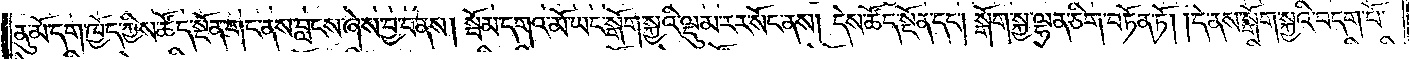ནུ་མོ་དག་ཁྱོད་ཀྱིས་ཚོད་སྔོན་གང་ནས་བླངས་ཞེས་བྱ་བ་ནས། སྦོམ་དགའ་མོ་ཡང་སྒོག་སྐྱའི་ལྡུམ་རར་སོང་ནས། དེས་ཚོད་སྔོན་དང༌། སྒོག་སྐྱ་ལྷན་ཅིག་བཏོན་ཏོ། །དེ་ནས་སྒོག་སྐྱའི་བདག་པོ་
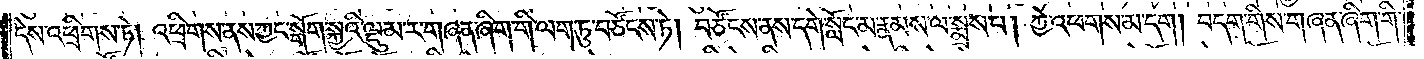དེས་འཕྲིགས་ཏེ། འཕྲིགས་ནས་ཀྱང་སྒོག་སྐྱའི་ལྡུམ་ར་གཞན་ཞིག་གི་ལག་ཏུ་བཙོངས་ཏེ། བཙོངས་ནས་དགེ་སློང་མ་རྣམས་ལ་སྨྲས་པ། ཀྱེ་འཕགས་མ་དག། བདག་གིས་གཞན་ཞིག་གི་
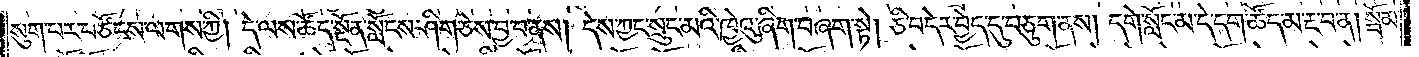སུག་པར་བཙོངས་ལགས་ཀྱི། དེ་ལས་ཚོད་སྔོན་སློངས་ཤིག་ཅེས་བྱ་བ་ནས། དེས་ཀྱང་སྲུང་མའི་ཁྱེའུ་ཞིག་བཞག་སྟེ། ཅི་བདེར་བྱེད་དུ་བཅུག་ནས། དགེ་སློང་མ་དེ་དག་ཚོད་མ་རྔ་བ་ན། སྦོམ་
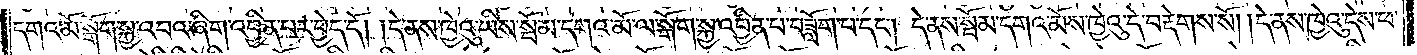དགའ་མོ་སྒོག་སྐྱ་འབའ་ཞིག་འབྱིན་པར་བྱེད་དོ། །དེ་ནས་ཁྱེའུ་ཡིས་སྦོམ་དགའ་མོ་ལ་སྒོག་སྐྱ་འབྱིན་པ་བཟློག་པ་དང༌། དེ་ནས་སྦོམ་དགའ་མོས་ཁྱེའུ་དེ་བརྡེགས་སོ། །དེ་ནས་ཁྱེའུ་དེས་ཕ་
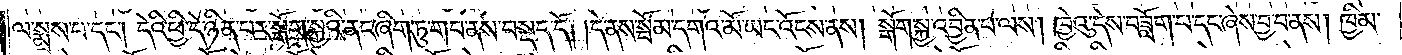ལ་སྨྲས་པ་དང༌། དེའི་ཕྱིར་དེ་ཉིན་པར་སྒོག་སྐྱའི་ནང་ཞིག་ཏུ་གབ་ནས་བསྡད་དོ། །དེ་ནས་སྦོམ་དགའ་མོ་ཡང་འོངས་ནས། སྒོག་སྐྱ་འབྱིན་པ་ལས། ཁྱེའུ་དེས་བཟློག་པ་དང་ཞེས་བྱ་བ་ནས། ཁྱིམ་
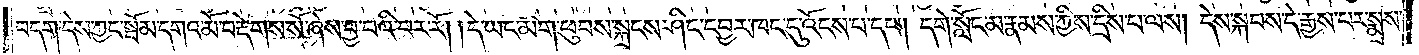བདག་དེས་ཀྱང་སྦོམ་དགའ་མོ་བརྡེགས་སོ་ཞེས་བྱ་བའི་བར་རོ། །དེ་ཡང་མིག་ཕུབས་སྐྲངས་ཤིང་དབྱར་ཁང་དུ་འོངས་པ་དང༌། དགེ་སློང་མ་རྣམས་ཀྱིས་དྲིས་པ་ལས། དེས་སྐབས་དེ་རྒྱས་པར་སྨྲས་
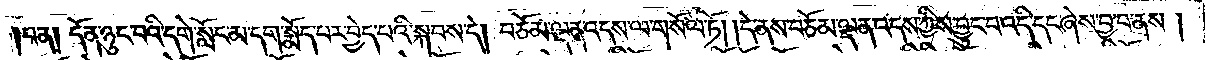པ་ན། དོན་ཉུང་བའི་དགེ་སློང་མ་དག་སྨོད་པར་བྱེད་པའི་སྐབས་དེ། བཅོམ་ལྡན་འདས་ལ་གསོལ་ཏོ། །དེ་ནས་བཅོམ་ལྡན་འདས་ཀྱིས་བྱུང་བ་འདི་དང་ཞེས་བྱ་བ་ནས།
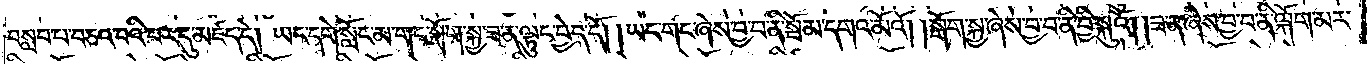བསླབ་པ་བཅའ་བའི་བར་དུ་མཛད་དེ། ཡང་དགེ་སློང་མ་གང་སྒོག་སྐྱ་ཟ་ན་ལྟུང་བྱེད་དོ། །ཡང་གང་ཞེས་བྱ་བ་ནི་སྦོམ་དགའ་མོའོ། །སྒོག་སྐྱ་ཞེས་བྱ་བ་ནི་བྱི་སྐུའོ། །ཟ་ན་ཞེས་བྱ་བ་ནི་ལྐོག་མར་
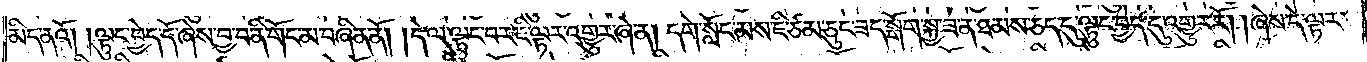མིད་ནའོ། །ལྟུང་བྱེད་དོ་ཞེས་བྱ་བ་ནི་གོང་མ་བཞིན་ནོ། །དེ་ལ་ལྟུང་བར་ཇི་ལྟར་འགྱུར་ཞེ་ན། དགེ་སློང་མས་ཇི་ཙམ་ཅུང་ཟད་སྒོག་སྐྱ་ཟ་ན་ཐམས་ཅད་དུ་ལྟུང་བྱེད་དུ་འགྱུར་རོ། །ཞེས་དེ་ལྟར་
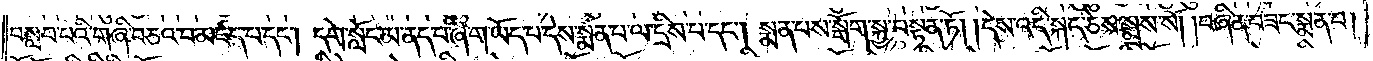བསླབ་པའི་གཞི་བཅའ་བ་མཛད་པ་དང༌། དགེ་སློང་མ་ནད་པ་ཞིག་ཡོད་པ་དེས་སྨན་པ་ལ་དྲིས་པ་དང༌། སྨན་པས་སྒོག་སྐྱ་བསྟན་ཏོ། །དེས་འདི་སྐད་ཅེས་སྨྲས་སོ། །བཞིན་བཟང་སྨན་པ།
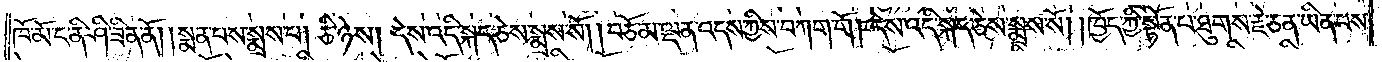ཁོ་མོ་ང་ནི་ཤི་ཟིན་ནོ། །སྨན་པས་སྨྲས་པ། ཅི་ཉེས། དེས་འདི་སྐད་ཅེས་སྨྲས་སོ། །བཅོམ་ལྡན་འདས་ཀྱིས་བཀག་གོ །དེས་འདི་སྐད་ཅེས་སྨྲས་སོ། །ཁྱོད་ཀྱི་སྟོན་པ་ཐུགས་རྗེ་ཅན་ཡིན་པས་
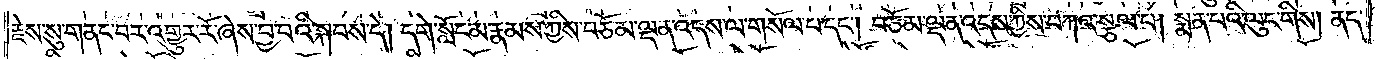རྗེས་སུ་གནང་བར་འགྱུར་རོ་ཞེས་བྱ་བའི་སྐབས་དེ། དགེ་སློང་མ་རྣམས་ཀྱིས་བཅོམ་ལྡན་འདས་ལ་གསོལ་པ་དང༌། བཅོམ་ལྡན་འདས་ཀྱིས་བཀའ་སྩལ་པ། སྨན་པའི་ལུང་གིས། ནད་
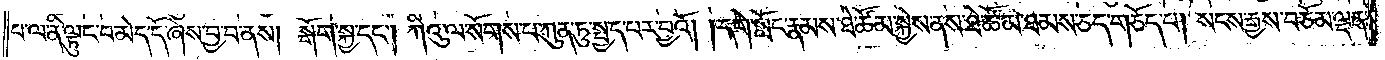པ་ལ་ནི་ལྟུང་བ་མེད་དོ་ཞེས་བྱ་བ་ནས། སྒོག་སྐྱ་དང༌། ཀིའུ་ལ་སོགས་པ་ཀུན་ཏུ་སྤྱད་པར་བྱའོ། །དགེ་སློང་རྣམས་ཐེ་ཚོམ་སྐྱས་ནས་ཐེ་ཚོམ་ཐམས་ཅད་གཅོད་པ། སངས་རྒྱས་བཅོམ་ལྡན་
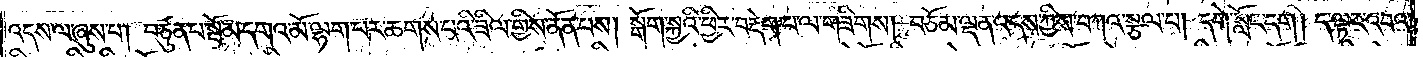འདས་ལ་ཞུས་པ། བཙུན་པ་སྦོམ་དགའ་མོ་ལྷག་པར་ཆགས་པའི་ཟིལ་གྱིས་ནོན་པས། སྒོག་སྐྱའི་ཕྱིར་བརྡེག་པ་ལ་གཟིགས། བཅོམ་ལྡན་འདས་ཀྱིས་བཀའ་སྩལ་པ། དགེ་སློང་དག །ད་ལྟར་འབའ་
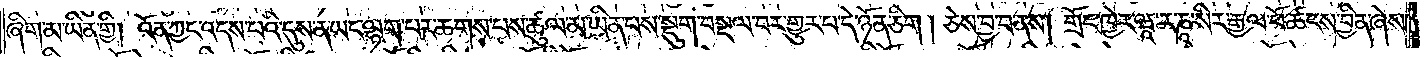ཞིག་མ་ཡིན་གྱི། འོན་ཀྱང་འདས་པའི་དུས་ན་ཡང་ལྷག་པར་ཆགས་པས་ཚུལ་མ་ཡིན་པས་སྡུག་བསྔལ་བར་གྱུར་པ་དེ་ཉོན་ཅིག །ཅེས་བྱ་བ་ནས། གྲོང་ཁྱེར་ཝཱ་ར་ཎཱ་སིར་རྒྱལ་པོ་ཚངས་བྱིན་ཞེས་
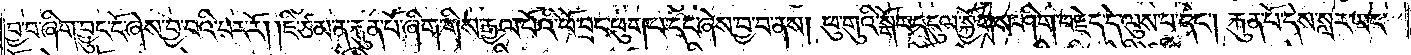བྱ་བ་ཞིག་བྱུང་ངོ་ཞེས་བྱ་བའི་བར་རོ། །ཇི་ཙམ་ན་རྐུན་པོ་ཞིག་གིས་རྒྱལ་པོའི་ཕོ་བྲང་ཕུག་པ་དང་ཞེས་བྱ་བ་ནས། ཕུ་གུའི་སྒོར་དངུལ་སྐྱོགས་ཤིག་བརྗེད་དེ་ལུས་པ་དང༌། རྐུན་པོ་དེས་སླར་ཡང་
